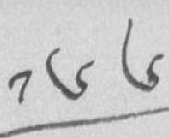༡༦༦
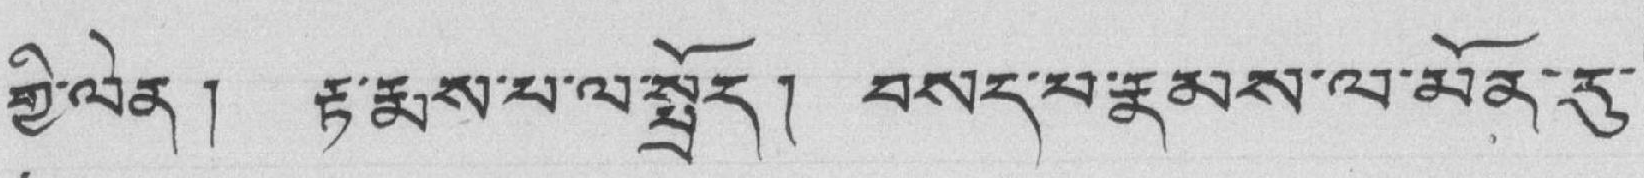གྱི་ལེན ། རྟ་རྨས་པ་ལ་སྤྲོད། བསད་པ་རྣམས་ལ་མོན་རུ་
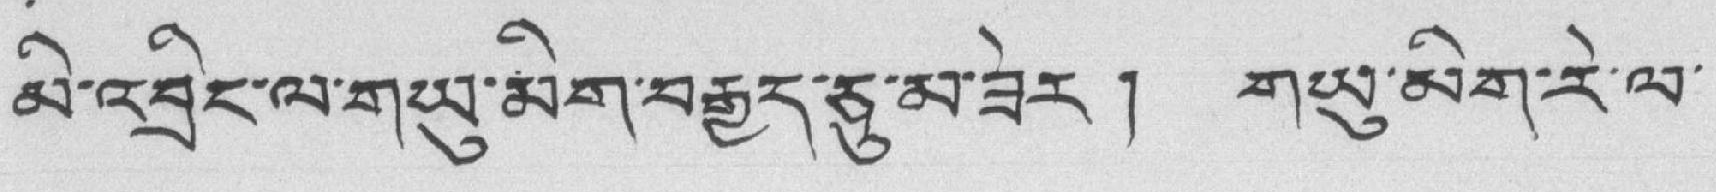མི་འབྲིང་ལ་གཡུ་མིག་བརྒྱད་ཅུ་མ་ཟེར ། གཡུ་མིག་རེ་ལ་
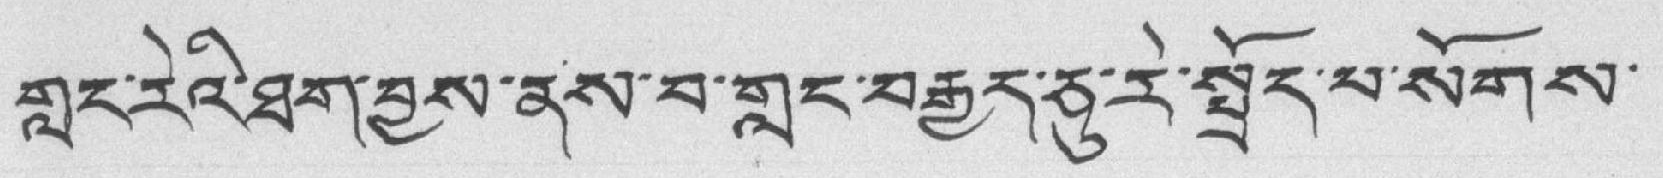གླང་རེའི་ཐག་བྱས་ནས་བ་གླང་བརྒྱད་ཅུ་རེ་སྤྲོད་པ་སོགས་
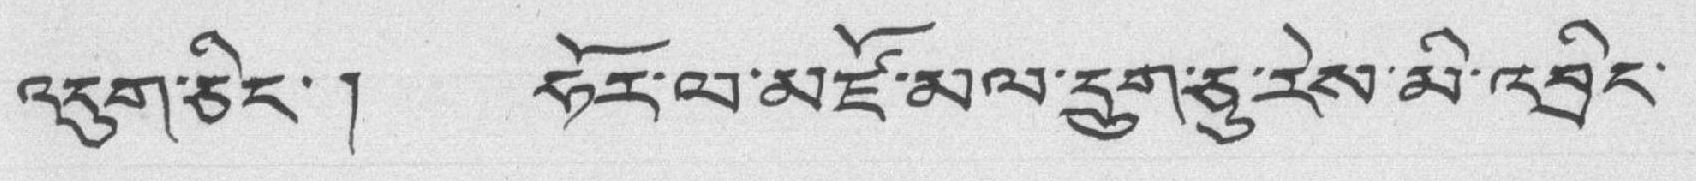འདུག་ཅིང་ ། ཧོར་ལ་མཛོ་མལ་དྲུག་ཅུ་རེས་མི་འབྲིང་
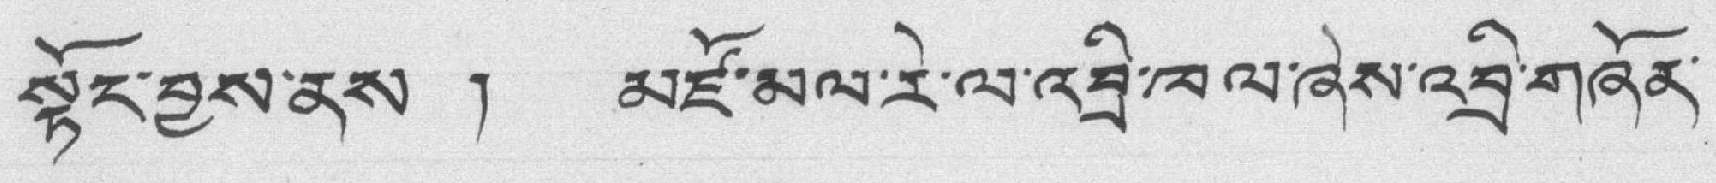སྟོང་བྱས་ནས ། མཛོ་མལ་རེ་ལ་འབྲི་ཁལ་ཞེས་འབྲི་གཞོན་
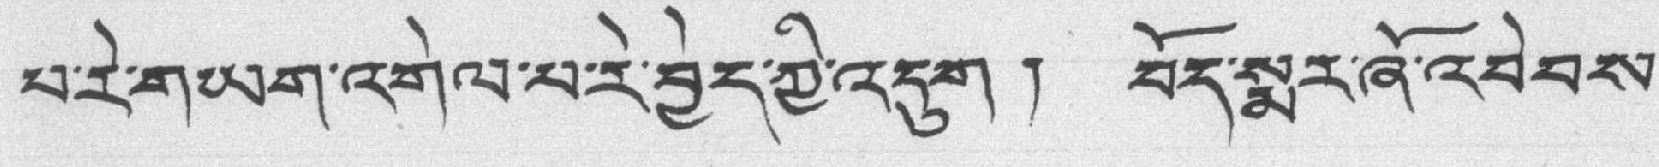པ་རེ་གཡག་འགེལ་པ་རེ་བྱེད་ཀྱི་འདུག ། བོད་སྨར་ཞོ་འབེབས་
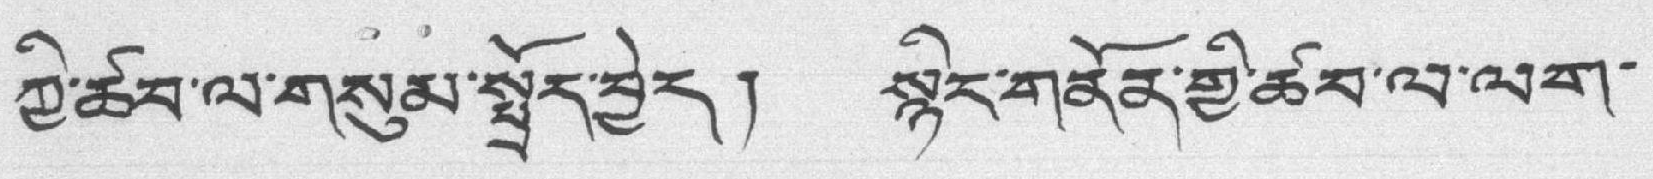ཀྱི་ཚབ་ལ་གསུམ་སྤྲོད་བྱེད། སྙིང་གནོན་གྱི་ཚབ་ལ་ལག་
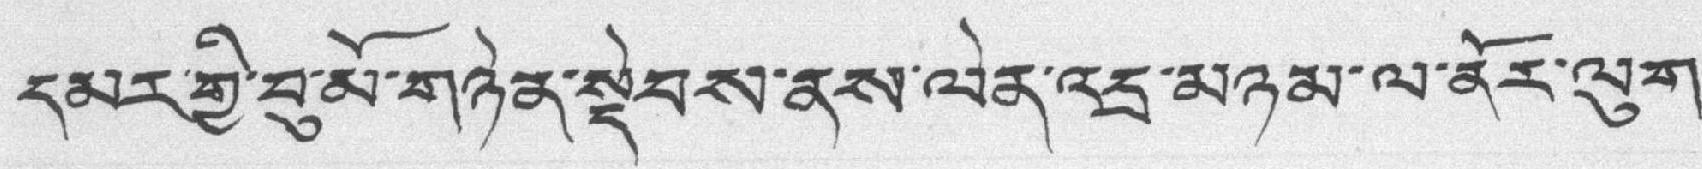དམར་གྱི་བུ་མོ་གཉེན་སྡེབས་ནས་ལེན་འདྲ་མཉམ་ལ་ནོར་ལུག་
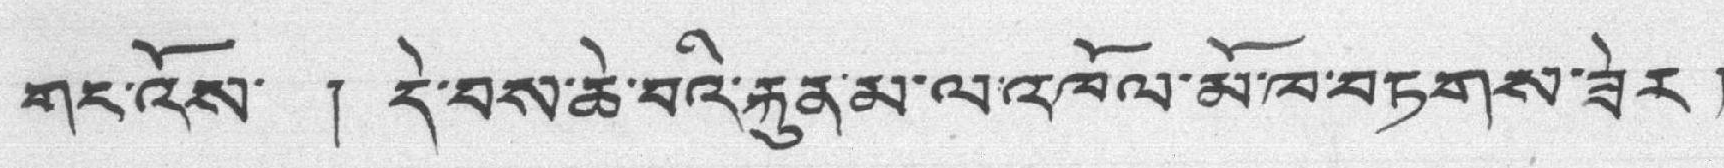གང་འོས་ ། དེ་བས་ཆེ་བའི་རྐུན་མ་ལ་འཁོལ་མོ་ཁ་བཏགས་ཟེར །
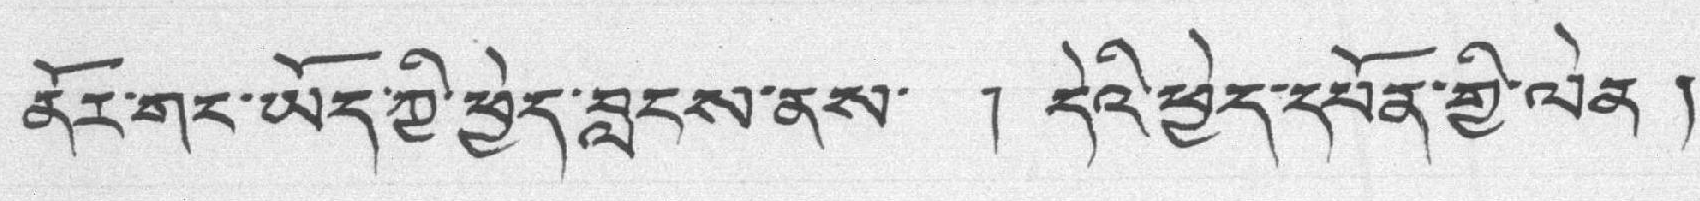ནོར་གང་ཡོད་ཀྱི་ཕྱེད་བླངས་ནས་ ། དེའི་ཕྱེད་དཔོན་གྱི་ལེན །
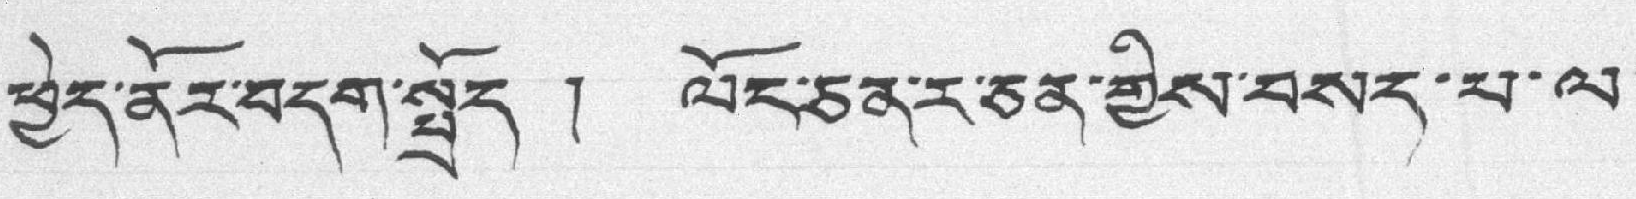ཕྱེད་ནོར་བདག་སྤྲོད ། ལོང་ཅན་ར་ཅན་གྱིས་བསད་པ་ལ་
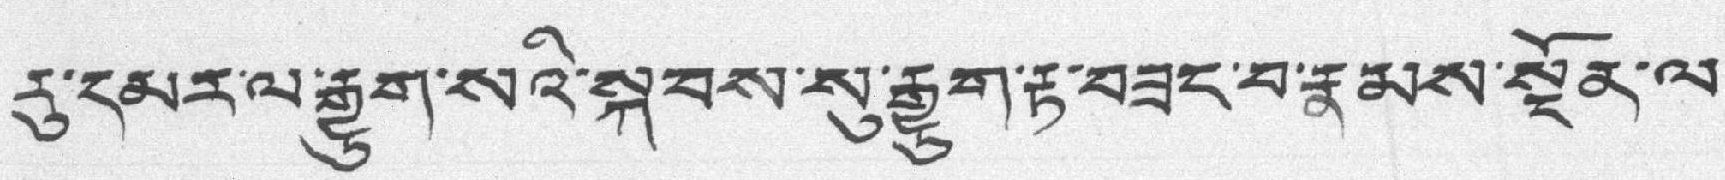རུ་དམར་ལ་རྒྱུག་སའི་སྐབས་སུ་རྒྱུག་རྟ་བཟང་བ་རྣམས་སྔོན་ལ་
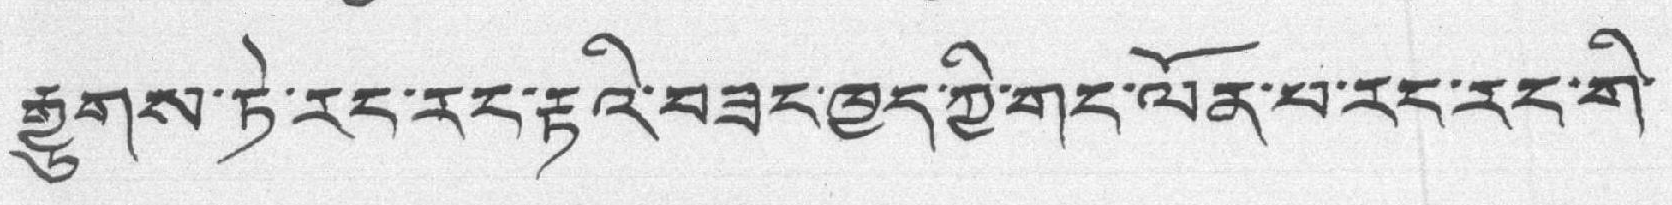རྒྱུགས་ཏེ་རང་རང་རྟའི་བཟང་ཁྱད་ཀྱི་གང་ལོན་པ་རང་རང་གི་
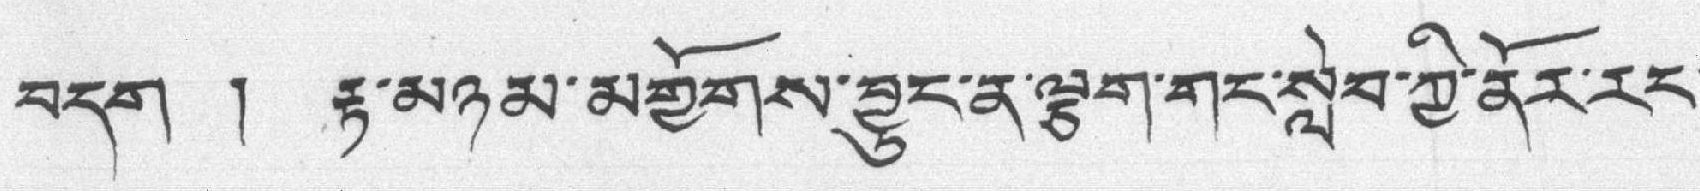བདག ། རྟ་མཉམ་མགྱོགས་བྱུང་ན་ལྕག་གང་སླེབ་ཀྱི་ནོར་རང་
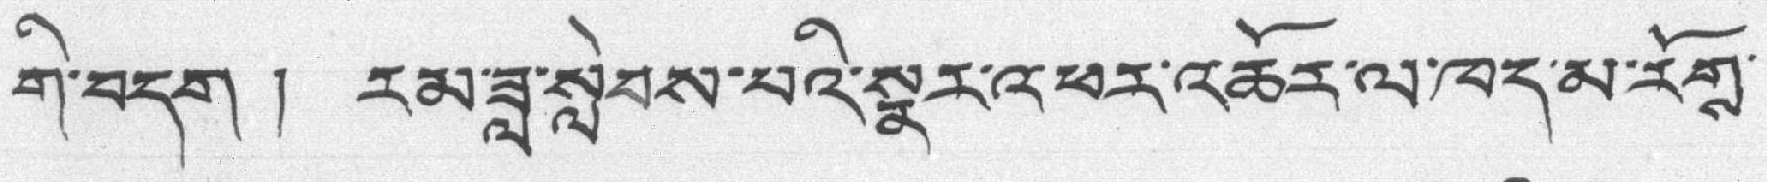གི་བདག ། རམ་ཟླ་སླེབས་པའི་སྣར་འཕར་འཆོར་ལ་ཁད་མ་རོགས་
